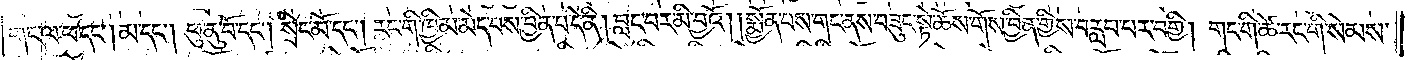གང་ལ་ཕ་དང༌། མ་དང༌། ཕུ་ནུ་བོ་དང༌། སྲིང་མོ་དང༌། རང་གི་ཁྱིམ་མེད་པས་བྱིན་པ་དེ་ནི། བླང་བར་མི་བྱའོ། །སྨྱོན་པས་གང་ནས་བཟུང་སྟེ་ཆོས་གོས་བྱིན་གྱིས་བརླབ་པར་བགྱི། གང་གི་ཚེ་རང་གི་སེམས་
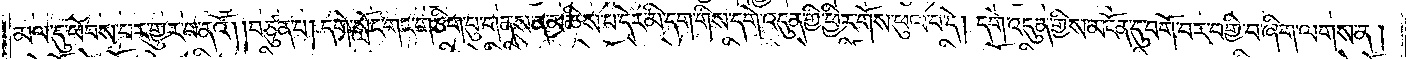མལ་དུ་ཕེབས་པར་གྱུར་པ་ནའོ། །བཙུན་པ། དགེ་སློང་གང་གཅིག་པུ་གནས་ན་མཆིས་པ་དེར་མི་དག་གིས་དགེ་འདུན་གྱི་ཕྱིར་གོས་ཕུལ་བ་དེ། དགེ་འདུན་གྱིས་མངོན་དུ་བགོ་བར་བགྱི་བ་ཞིག་ལགས་ན།
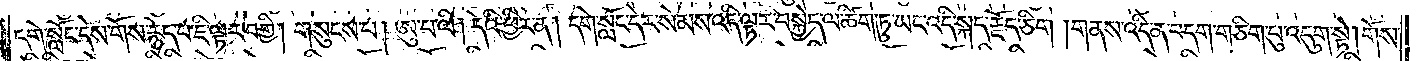དགེ་སློང་དེས་གོས་རྙེད་པ་ཇི་ལྟར་བགྱི། གསུངས་པ། ཨུ་པ་ལི། དེའི་ཕྱིར་ན། དགེ་སློང་དེར་སེམས་འདི་ལྟར་བསྐྱེད་ལ་ཚིག་ཏུ་ཡང་འདི་སྐད་རྗོད་ཅིག །གནས་འདི་ན་བདག་གཅིག་པུ་འདུག་སྟེ། གོས་
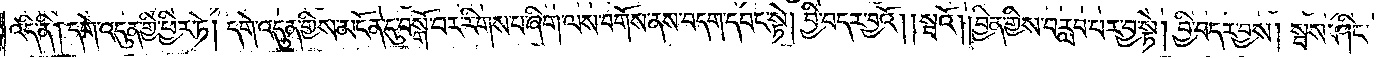འདི་ནི། དགེ་འདུན་གྱི་ཕྱིར་ཏེ། དགེ་འདུན་གྱིས་མངོན་དུ་བསྒོ་བར་རིགས་པ་ཞིག་ལས་བགོས་ནས་བདག་དབང་སྟེ། བྱི་བདར་བྱའོ། །སྦའོ། །བྱིན་གྱིས་བརླབ་པར་བྱ་སྟེ། བྱི་བདར་བྱས། སྦས་ཤིང་
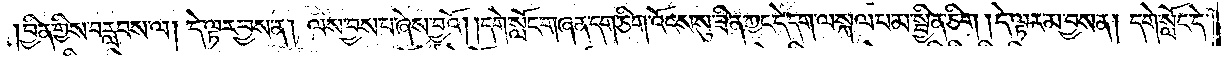བྱིན་གྱིས་བརླབས་ལ། དེ་ལྟར་བྱས་ན། ལས་བྱས་པ་ཞེས་བྱའོ། །དགེ་སློང་གཞན་དག་ཅིག་འོངས་སུ་ཟིན་ཀྱང་དེ་དག་ལ་སྐལ་པ་མ་སྦྱིན་ཅིག །དེ་ལྟར་མ་བྱས་ན། དགེ་སློང་དེ་
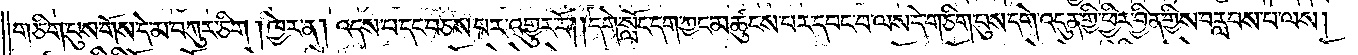གཅིག་པུས་གོས་དེ་མ་བཀུར་ཅིག །ཁྱེར་ན། འདས་པ་དང་བཅས་པར་འགྱུར་རོ། །དགེ་སློང་དག་ཀྱང་མཚུངས་པར་དབང་བ་ལས་དེ་གཅིག་པུས་དགེ་འདུན་གྱི་ཕྱིར་བྱིན་གྱིས་བརླབས་པ་ལས།
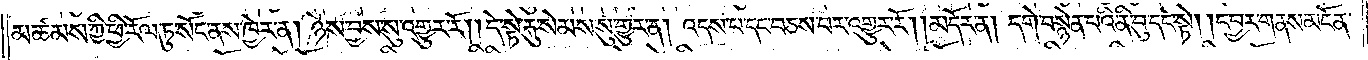མཚམས་ཀྱིས་ཕྱི་རོལ་ཏུ་སོང་ནས་ཁྱེར་ན། ཉེས་བྱས་སུ་འགྱུར་རོ། །དེ་སྟེ་རྐུ་སེམས་སུ་གྱུར་ན། འདས་པ་དང་བཅས་པར་འགྱུར་རོ། །མདོར་ན། དགེ་བསྙེན་པའི་ནི་བུ་དང་སྟེ། དབྱར་གནས་མངོན་
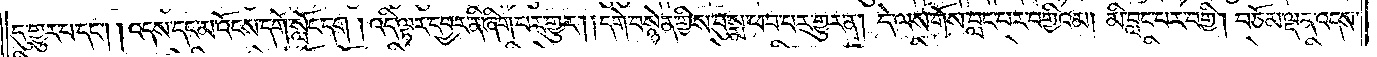དུ་གྱུར་པ་དང༌། །འདས་དང་མ་འོངས་དགེ་སློང་དག །འདི་ལྟར་དབྱར་ནི་ཞིག་པར་གྱུར། །དགེ་བསྙེན་གྱིས་བུ་སྨ་ཕབ་པར་གྱུར་ན། དེ་ལས་གོས་བླང་བར་བགྱིའམ། མི་བླང་བར་བགྱི། བཅོམ་ལྡན་འདས་
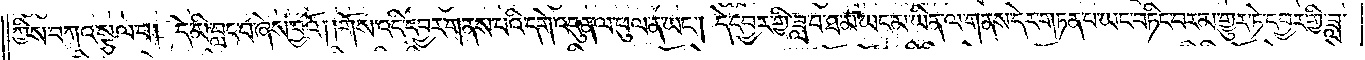ཀྱིས་བཀའ་སྩལ་པ། དེ་མི་བླང་བ་ཞེས་བྱའོ། །གོས་འདི་དབྱར་གནས་པའི་དགེ་འདུན་ལ་ཕུལ་ན་ཡང༌། དེ་དབྱར་གྱི་ཟླ་བ་ཐ་མ་ཡང་མ་ཡིན་ལ་གནས་དེར་གཏན་པ་ཡང་བཏིང་བར་མ་གྱུར་ཏེ་དབྱར་གྱི་ཟླ་
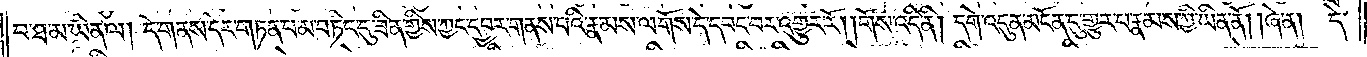བ་ཐ་མ་ཡིན་ལ། དེ་གནས་དེར་གཏན་པ་མ་བཏིང་དུ་ཟིན་གྱིས་ཀྱང་དབྱར་གནས་པའི་རྣམས་ལ་གོས་དེ་དབང་བར་འགྱུར་རོ། །གོས་འདི་ནི། དགེ་འདུན་མངོན་དུ་གྱུར་པ་རྣམས་ཀྱི་ཡིན་ནོ། །ཞེ་ན། དེ་
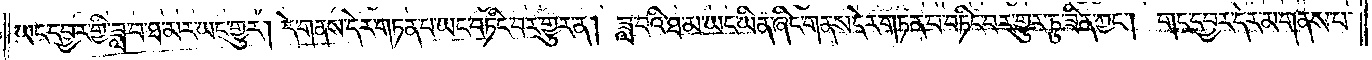ཡང་དབྱར་གྱི་ཟླ་བ་ཐ་མར་ཡང་གྱུར། དེ་གནས་དེར་གཏན་པ་ཡང་བཏིང་བར་གྱུར་ན། ཟླ་བའི་ཐ་མ་ཡང་ཡིན་ཞིང་གནས་དེར་གཏན་པ་བཏིང་བར་གྱུར་ཏུ་ཟིན་ཀྱང༌། གང་དབྱར་དེར་མ་གནས་པ་
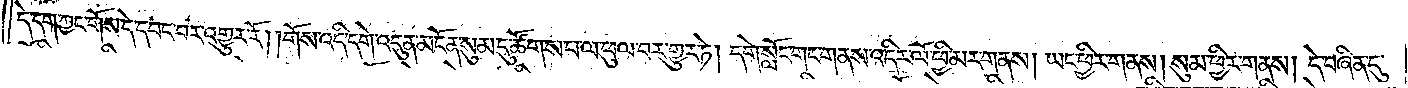དེ་དག་ཀྱང་གོས་དེ་དབང་བར་འགྱུར་རོ། །གོས་འདི་དགེ་འདུན་མངོན་སུམ་དུ་ཚོགས་པ་ལ་ཕུལ་བར་གྱུར་ཏེ། དགེ་སློང་གང་གནས་འདིར་ལོ་ཕྱི་མར་གནས། ཡང་ཕྱིར་གནས། སུམ་ཕྱིར་གནས། དེ་བཞིན་དུ་
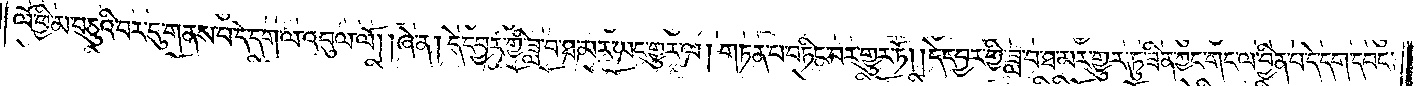ལོ་ཕྱི་མ་བཅུའི་བར་དུ་གནས་པ་དེ་དག་ལ་འབུལ་ལོ། །ཞེ་ན། དེ་དབྱར་གྱི་ཟླ་བ་ཐ་མར་ཡང་གྱུར་ལ། གཏན་པ་བཏིང་བར་གྱུར་ཏོ། །དེ་དབྱར་གྱི་ཟླ་བ་ཐ་མར་གྱུར་ཏུ་ཟིན་ཀྱང་གང་ལ་བྱིན་པ་དེ་དག་དབང་
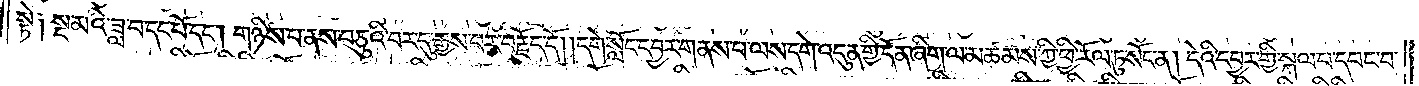སྟེ༑ སྔ་མའི་ཟླ་བ་དང་པོ་དང༌། གཉིས་པ་ནས་བཅུའི་བར་དུ་རྒྱས་པར་བརྗོད་དོ། །དགེ་སློང་དབྱར་གནས་པ་ལས་དགེ་འདུན་གྱི་དོན་ཞིག་ལ་མཚམས་ཀྱི་ཕྱི་རོལ་ཏུ་སོང་ན། དེའི་དབྱར་གྱི་སྐལ་བ་དབང་བ་
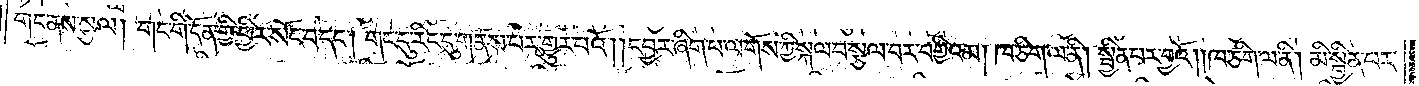གང་ནས་སྩལ། གང་གི་དོན་གྱི་ཕྱིར་སོང་བ་དང༌། གང་དུ་རིང་དུ་གནས་པར་གྱུར་པའོ། །དབྱར་ཞིག་པ་ལ་གོས་ཀྱི་སྐལ་བ་སྩལ་བར་བགྱིའམ། ཁ་ཅིག་ལ་ནི། སྦྱིན་པར་བྱའོ། །ཁ་ཅིག་ལ་ནི། མི་སྦྱིན་པར་
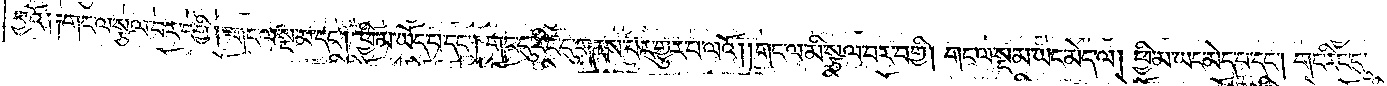བྱའོ༑ ༑གང་ལ་སྩལ་བར་བགྱི། གང་ལ་སྔ་མ་དང༌། ཕྱི་མ་ཡོད་པ་དང༌། གང་དུ་རིང་དུ་གནས་པར་གྱུར་པ་ལའོ། །གང་ལ་མི་སྩལ་བར་བགྱི། གང་ལ་སྔ་མ་ཡང་མེད་ལ། ཕྱི་མ་ཡང་མེད་པ་དང༌། གང་རིང་དུ་
